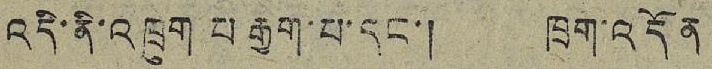འདི་ནི་འཁྲག་པ རྒྱག་པ་དང་། ཁྲག་འདོན
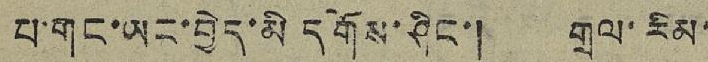པ་གང་ཡང་བྱེད་མི དགོས་ཤིང་། གྲལ་རིམ་
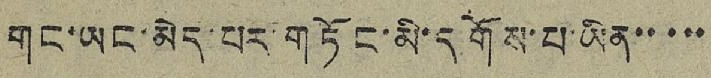གང་ཡང་མེད་པར་གཏོང་མི་དགོས་པ་ཡིན་་་་་
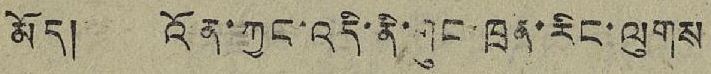མོད། འོན་ཀྱང་འདི་ནི་གུང་ཁྲན་རིང་ལུགས
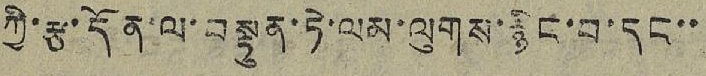ཀྱི་རྩ་དོན་ལ་བསྟུན་ཏེ་ལམ་ལུགས་རྙིང་བ་དང་་
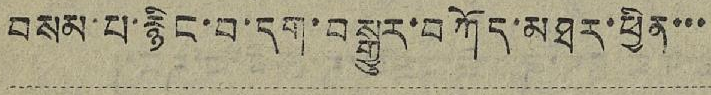བསམ་པ་རྙིང་བ་དག་བསྒྱུར་བཀོད་མཐར་ཕྱིན་་་
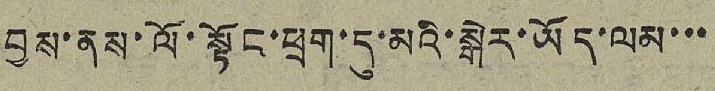བྱས་ནས་ལོ་སྟོང་ཕྲག་དུ་མའི་སྒེར་ཡོད་ལམ་་་
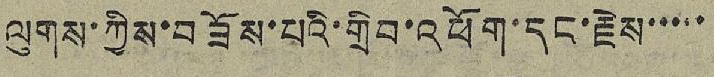ལུགས་ཀྱིས་བཟོས་པའི་གྲིབ་འཕོག་དང་རྗེས་་་་་
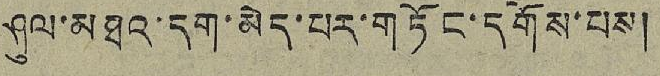ཤུལ་མཐའ་དག་མེད་པར་གཏོང་དགོས་པས།
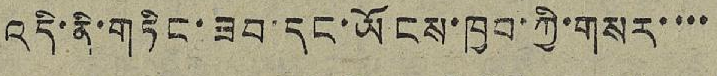འདི་ནི་གཏིང་ཟབ་དང་ཡོངས་ཁྱབ་ཀྱི་གསར་་་་
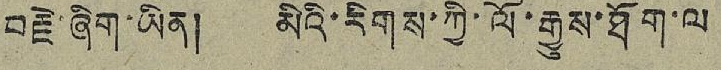བརྗེ་ཞིག་ཡིན། མིའི་རིགས་ཀྱི་ལོ་རྒྱུས་ཐོག་ལ
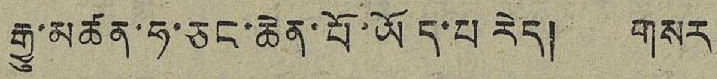རྒྱུ་མཚན་ཧ་ཅང་ཆེན་པོ་ཡོད་པ་རེད། གསར་
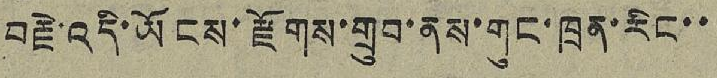བརྗེ་འདི་ཡོངས་རྫོགས་གྲུབ་ནས་གུང་ཁྲན་རིང་་
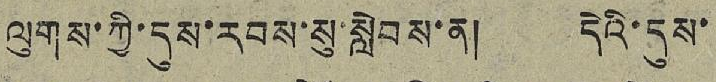ལུགས་ཀྱི་དུས་རབས་སུ་སླེབས་ན། དེའི་དུས་
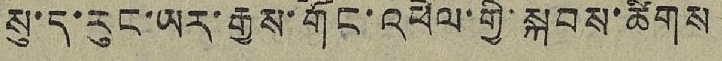སུ་ད་རུང་ཡར་རྒྱས་གོང་འཕེལ་གྱི་སྐབས་ཚིགས་
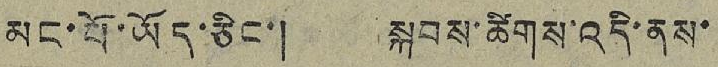མང་པོ་ཡོད་ཅིང་། སྐབས་ཚིགས་འདི་ནས་
